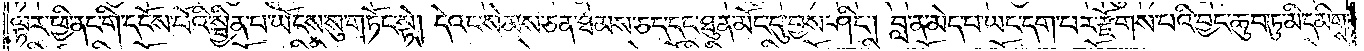ལྟར་ཕྱི་ནང་གི་དངོས་པོའི་སྦྱིན་པ་ཡོངས་སུ་གཏོང་སྟེ། དེའང་སེམས་ཅན་ཐམས་ཅད་དང་ཐུན་མོང་དུ་བྱས་ཤིང༌། བླ་ན་མེད་པ་ཡང་དག་པར་རྫོགས་པའི་བྱང་ཆུབ་ཏུ་མི་དམིགས་
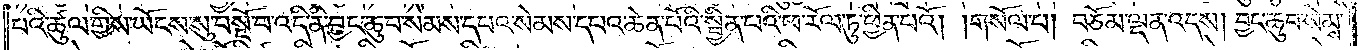པའི་ཚུལ་གྱིས་ཡོངས་སུ་བསྔོ་བ་འདི་ནི་བྱང་ཆུབ་སེམས་དཔའ་སེམས་དཔའ་ཆེན་པོའི་སྦྱིན་པའི་ཕ་རོལ་ཏུ་ཕྱིན་པའོ། །གསོལ་པ། བཅོམ་ལྡན་འདས། བྱང་ཆུབ་སེམས་
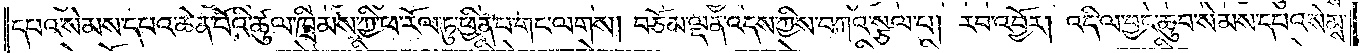དཔའ་སེམས་དཔའ་ཆེན་པོའི་ཚུལ་ཁྲིམས་ཀྱི་ཕ་རོལ་ཏུ་ཕྱིན་པ་གང་ལགས། བཅོམ་ལྡན་འདས་ཀྱིས་བཀའ་སྩལ་པ། རབ་འབྱོར། འདི་ལ་བྱང་ཆུབ་སེམས་དཔའ་སེམས་
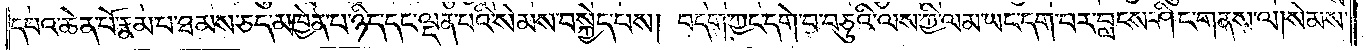དཔའ་ཆེན་པོ་རྣམ་པ་ཐམས་ཅད་མཁྱེན་པ་ཉིད་དང་ལྡན་པའི་སེམས་བསྐྱེད་པས། བདག་ཀྱང་དགེ་བ་བཅུའི་ལས་ཀྱི་ལམ་ཡང་དག་པར་བླངས་ཤིང་གནས་ལ། སེམས་
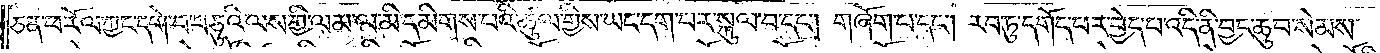ཅན་ཕ་རོལ་ཀྱང་དགེ་བ་བཅུའི་ལས་ཀྱི་ལམ་ལ་མི་དམིགས་པའི་ཚུལ་གྱིས་ཡང་དག་པར་སྐུལ་བ་དང༌། གཞོག་པ་དང༌། རབ་ཏུ་དགོད་པར་བྱེད་པ་འདི་ནི་བྱང་ཆུབ་སེམས་
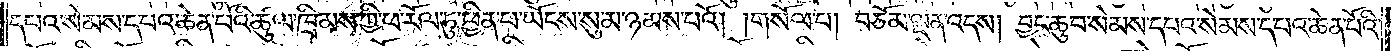དཔའ་སེམས་དཔའ་ཆེན་པོའི་ཚུལ་ཁྲིམས་ཀྱི་ཕ་རོལ་ཏུ་ཕྱིན་པ་ཡོངས་སུ་མ་ཉམས་པའོ། །གསོལ་པ། བཅོམ་ལྡན་འདས། བྱང་ཆུབ་སེམས་དཔའ་སེམས་དཔའ་ཆེན་པོའི་
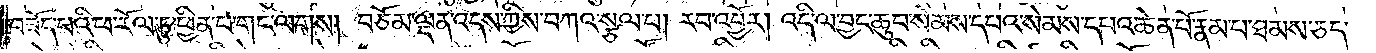བཟོད་པའི་ཕ་རོལ་ཏུ་ཕྱིན་པ་གང་ལགས། བཅོམ་ལྡན་འདས་ཀྱིས་བཀའ་སྩལ་པ། རབ་འབྱོར། འདི་ལ་བྱང་ཆུབ་སེམས་དཔའ་སེམས་དཔའ་ཆེན་པོ་རྣམ་པ་ཐམས་ཅད་
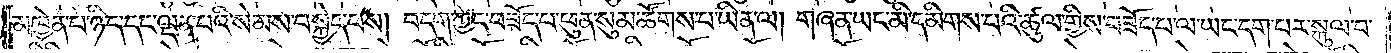མཁྱེན་པ་ཉིད་དང་ལྡན་པའི་སེམས་བསྐྱེད་པས། བདག་ཀྱང་བཟོད་པ་ཕུན་སུམ་ཚོགས་པ་ཡིན་ལ། གཞན་ཡང་མི་དམིགས་པའི་ཚུལ་གྱིས་བཟོད་པ་ལ་ཡང་དག་པར་སྐུལ་བ་
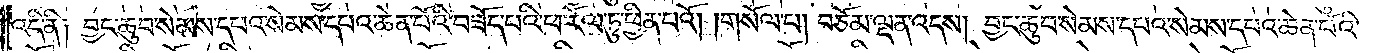འདི་ནི། བྱང་ཆུབ་སེམས་དཔའ་སེམས་དཔའ་ཆེན་པོའི་བཟོད་པའི་ཕ་རོལ་ཏུ་ཕྱིན་པའོ། །གསོལ་པ། བཅོམ་ལྡན་འདས། བྱང་ཆུབ་སེམས་དཔའ་སེམས་དཔའ་ཆེན་པོའི་
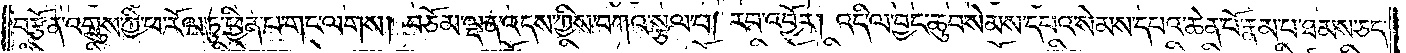བརྩོན་འགྲུས་ཀྱི་ཕ་རོལ་ཏུ་ཕྱིན་པ་གང་ལགས། བཅོམ་ལྡན་འདས་ཀྱིས་བཀའ་སྩལ་པ། རབ་འབྱོར། འདི་ལ་བྱང་ཆུབ་སེམས་དཔའ་སེམས་དཔའ་ཆེན་པོ་རྣམ་པ་ཐམས་ཅད་
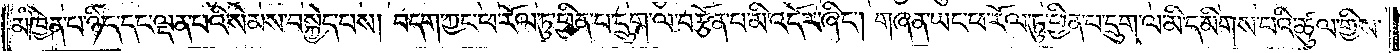མཁྱེན་པ་ཉིད་དང་ལྡན་པའི་སེམས་བསྐྱེད་པས། བདག་ཀྱང་ཕ་རོལ་ཏུ་ཕྱིན་པ་དྲུག་ལ་བརྩོན་པ་མི་འདོར་ཞིང༌། གཞན་ཡང་ཕ་རོལ་ཏུ་ཕྱིན་པ་དྲུག་ལ་མི་དམིགས་པའི་ཚུལ་གྱིས་
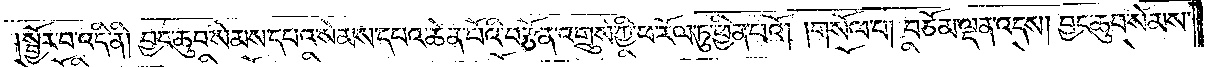སྦྱོར་བ་འདི་ནི། བྱང་ཆུབ་སེམས་དཔའ་སེམས་དཔའ་ཆེན་པོའི་བརྩོན་འགྲུས་ཀྱི་ཕ་རོལ་ཏུ་ཕྱིན་པའོ། །གསོལ་པ། བཅོམ་ལྡན་འདས། བྱང་ཆུབ་སེམས་
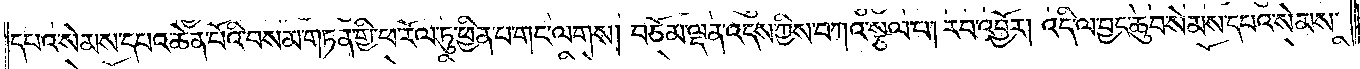དཔའ་སེམས་དཔའ་ཆེན་པོའི་བསམ་གཏན་གྱི་ཕ་རོལ་ཏུ་ཕྱིན་པ་གང་ལགས། བཅོམ་ལྡན་འདས་ཀྱིས་བཀའ་སྩལ་པ། རབ་འབྱོར། འདི་ལ་བྱང་ཆུབ་སེམས་དཔའ་སེམས་
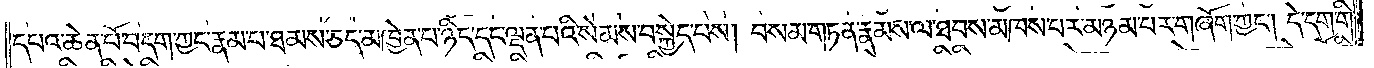དཔའ་ཆེན་པོ་བདག་ཀྱང་རྣམ་པ་ཐམས་ཅད་མཁྱེན་པ་ཉིད་དང་ལྡན་པའི་སེམས་བསྐྱེད་པས། བསམ་གཏན་རྣམས་ལ་ཐབས་མཁས་པར་མཉམ་པར་གཞོག་ཀྱང༌། དེ་དག་གི་
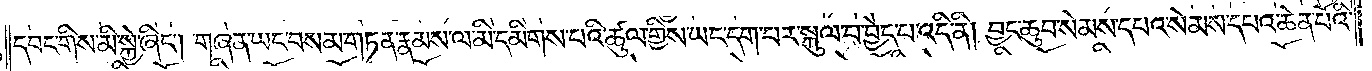དབང་གིས་མི་སྐྱེ་ཞིང༌། གཞན་ཡང་བསམ་གཏན་རྣམས་ལ་མི་དམིགས་པའི་ཚུལ་གྱིས་ཡང་དག་པར་སྐུལ་བ་བྱེད་པ་འདི་ནི། བྱང་ཆུབ་སེམས་དཔའ་སེམས་དཔའ་ཆེན་པོའི་
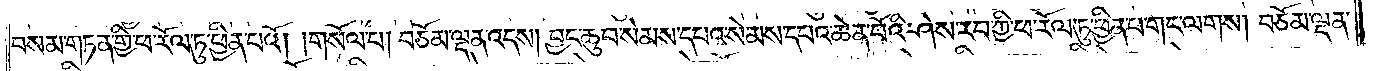བསམ་གཏན་གྱི་ཕ་རོལ་ཏུ་ཕྱིན་པའོ། །གསོལ་པ། བཅོམ་ལྡན་འདས། བྱང་ཆུབ་སེམས་དཔའ་སེམས་དཔའ་ཆེན་པོའི་ཤེས་རབ་ཀྱི་ཕ་རོལ་ཏུ་ཕྱིན་པ་གང་ལགས། བཅོམ་ལྡན་
